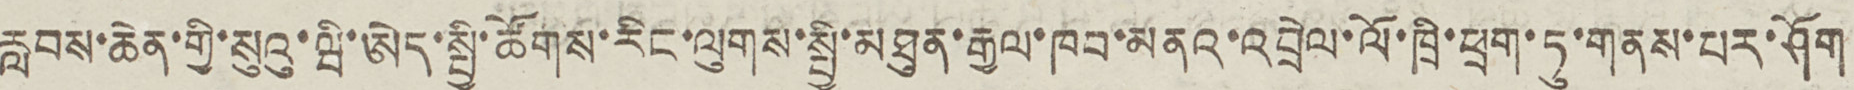རླབས་ཆེན་གྱི་སུའུ་ཝི་ཨེད་སྤྱི་ཚོགས་རིང་ལུགས་སྤྱི་མཐུན་རྒྱལ་ཁབ་མནའ་འབྲེལ་ལོ་ཁྲི་ཕྲག་ཏུ་གནས་པར་ཤོག
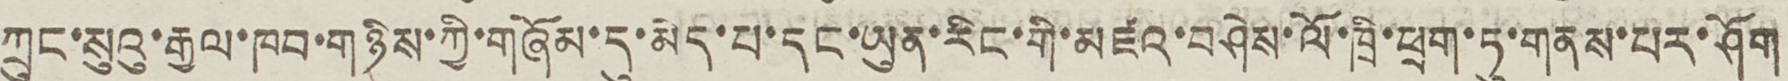ཀྲུང་སུའུ་རྒྱལ་ཁབ་གཉིས་ཀྱི་གཞོམ་དུ་མེད་པ་དང་ཡུན་རིང་གི་མཛའ་བཤེས་ལོ་ཁྲི་ཕྲག་ཏུ་གནས་པར་ཤོག
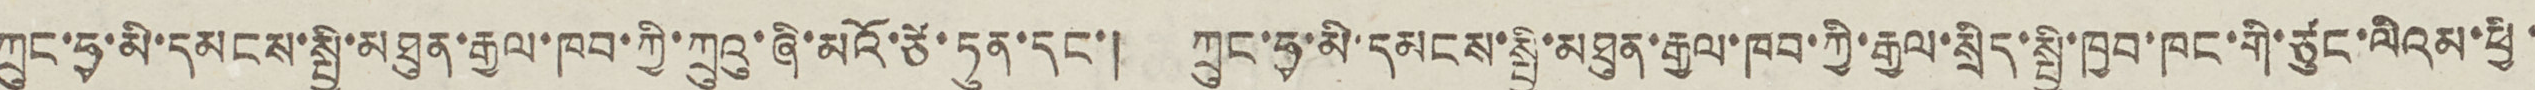ཀྲུང་ཧྭ་མི་དམངས་སྤྱི་མཐུན་རྒྱལ་ཁབ་ཀྱི་ཀྲུའུ་ཞི་མའོ་ཙེ་ཏུན་དང་། ཀྲུང་ཧྭ་མི་དམངས་སྤྱི་མཐུན་རྒྱལ་ཁབ་ཀྱི་རྒྱལ་སྲིད་སྤྱི་ཁྱབ་ཁང་གི་ཙུང་ལིའམ་ཕྱི་
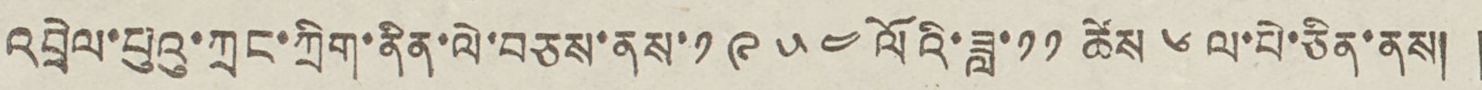འབྲེལ་པུའུ་ཀྲང་ཀྲིག་ནིན་ལེ་བཅས་ནས་༡ ༩ ༥ ༤ ལོའི་ཟླ་༡༡ ཚེས ༦ ལ་པེ་ཅིན་ནས། །
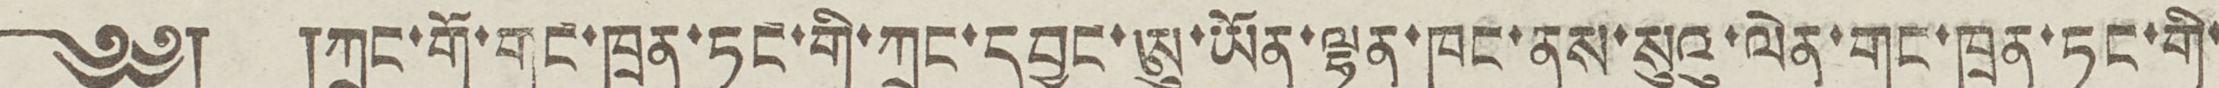༄༅། །ཀྲུང་གོ་གུང་ཁྲན་ཏང་གི་ཀྲུང་དབྱང་ཨུ་ཡོན་ལྷན་ཁང་ནས་སུའུ་ལེན་གུང་ཁྲན་ཏང་གི་
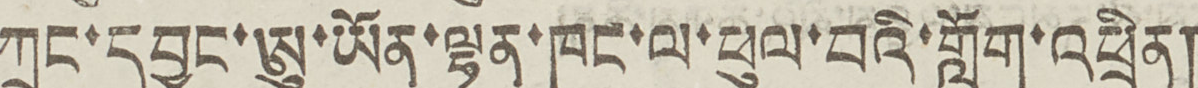ཀྲུང་དབྱང་ཨུ་ཡོན་ལྷན་ཁང་ལ་ཕུལ་བའི་གློག་འཕྲིན།
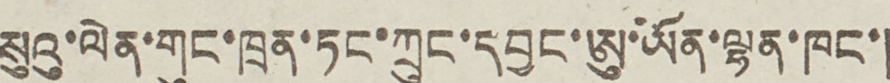སུའུ་ལེན་གུང་ཁྲན་ཏང་ཀྲུང་དབྱང་ཨུ་ཡོན་ལྷན་ཁང་།
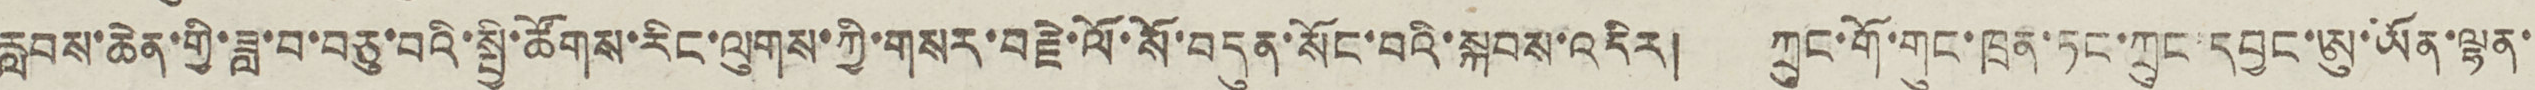རླབས་ཆེན་གྱི་ཟླ་བ་བཅུ་བའི་སྤྱི་ཚོགས་རིང་ལུགས་ཀྱི་གསར་བརྗེ་ལོ་སོ་བདུན་སོང་བའི་སྐབས་འདིར། ཀྲུང་གོ་གུང་ཁྲན་ཏང་ཀྲུང་དབྱང་ཨུ་ཡོན་ལྷན་
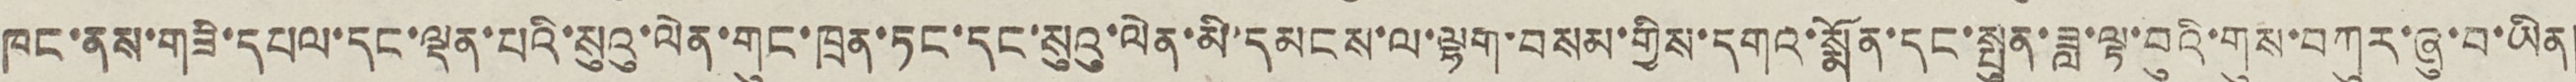ཁང་ནས་གཟི་དཔལ་དང་ལྡན་པའི་སུའུ་ལེན་གུང་ཁྲན་ཏང་དང་སུའུ་ལེན་མི་དམངས་ལ་ལྷག་བསམ་གྱིས་དགའ་སྨོན་དང་སྤུན་ཟླ་ལྟ་བུའི་གུས་བཀུར་ཞུ་བ་ཡིན།
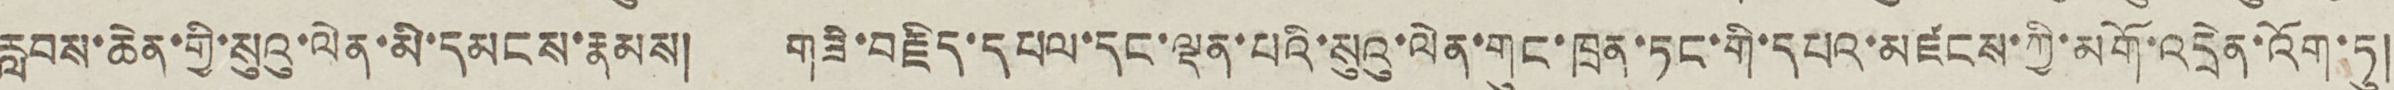རླབས་ཆེན་གྱི་སུའུ་ལེན་མི་དམངས་རྣམས། གཟི་བརྗིད་དཔལ་དང་ལྡན་པའི་སུའུ་ལེན་གུང་ཁྲན་ཏང་གི་དཔའ་མཛངས་ཀྱི་མགོ་འདྲེན་འོག་ཏུ།
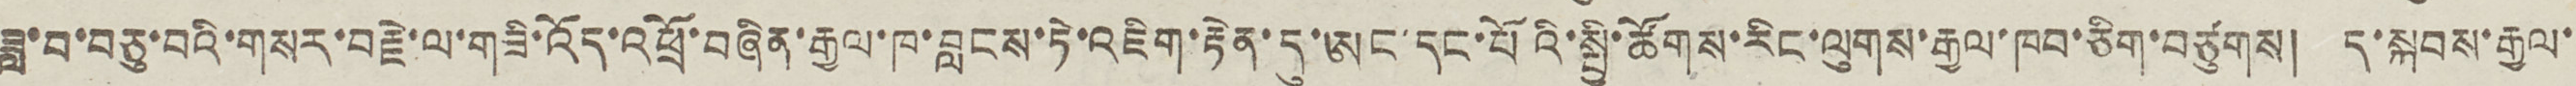ཟླ་བ་བཅུ་བའི་གསར་བརྗེ་ལ་གཟི་འོད་འཕྲོ་བཞིན་རྒྱལ་ཁ་བླངས་ཏེ་འཇིག་རྟེན་དུ་ཨང་དང་པོའི་སྤྱི་ཚོགས་རིང་ལུགས་རྒྱལ་ཁབ་ཅིག་བཙུགས། ད་སྐབས་རྒྱལ་
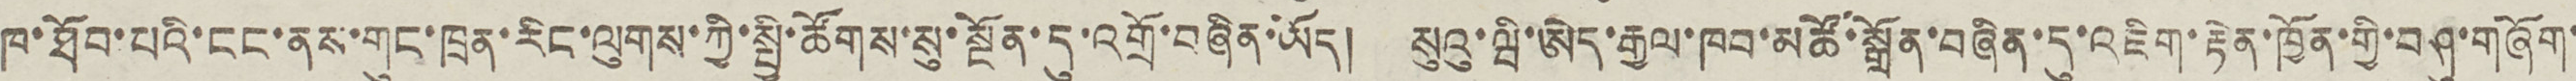ཁ་ཐོབ་པའི་ངང་ནས་གུང་ཁྲན་རིང་ལུགས་ཀྱི་སྤྱི་ཚོགས་སུ་སྔོན་དུ་འགྲོ་བཞིན་ཡོད། སུའུ་ཝི་ཨེད་རྒྱལ་ཁབ་མཚོ་སྒྲོན་བཞིན་དུ་འཇིག་རྟེན་ཁྱོན་གྱི་བཤུ་གཞོག་
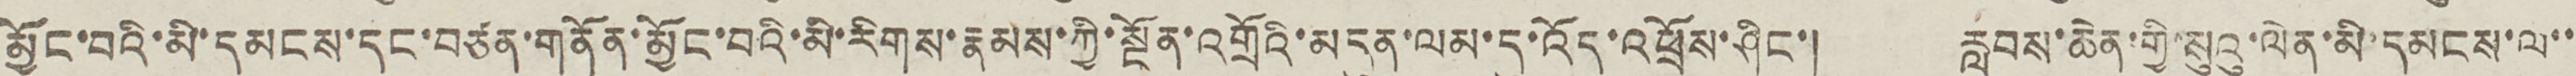མྱོང་བའི་མི་དམངས་དང་བཙན་གནོན་མྱོང་བའི་མི་རིགས་རྣམས་ཀྱི་སྔོན་འགྲོའི་མདུན་ལམ་དུ་འོད་འཕྲོས་ཤིང་། རླབས་ཆེན་གྱི་སུའུ་ལེན་མི་དམངས་ལ་་
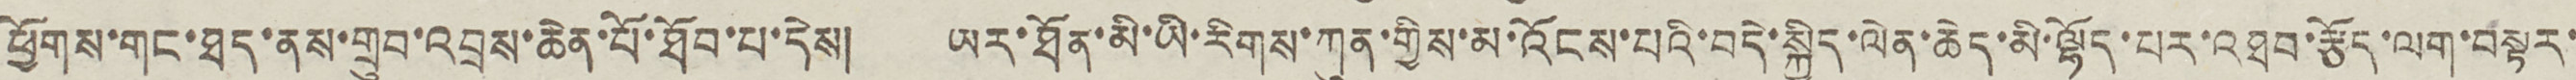ཕྱོགས་གང་ཐད་ནས་གྲུབ་འབྲས་ཆེན་པོ་ཐོབ་པ་དེས། ཡར་ཐོན་མི་ཡི་རིགས་ཀུན་གྱིས་མ་འོངས་པའི་བདེ་སྐྱིད་ལེན་ཆེད་མི་ལྷོད་པར་འཐབ་རྩོད་ལག་བསྟར་
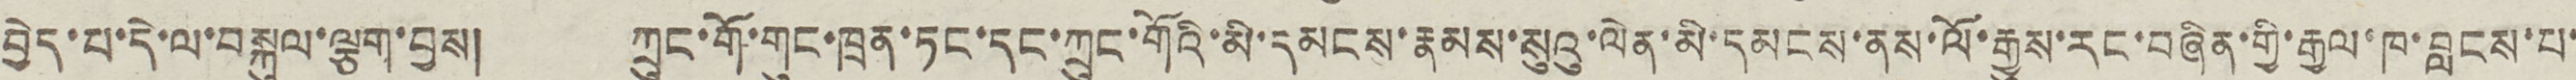བྱེད་པ་དེ་ལ་བསྐུལ་ལྕག་བྱས། ཀྲུང་གོ་གུང་ཁྲན་ཏང་དང་ཀྲུང་གོའི་མི་དམངས་རྣམས་སུའུ་ལེན་མི་དམངས་ནས་ལོ་རྒྱུས་རང་བཞིན་གྱི་རྒྱལ་ཁ་བླངས་པ་
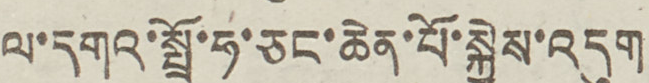ལ་དགའ་སྤྲོ་ཧ་ཅང་ཆེན་པོ་སྐྱས་འདུག
